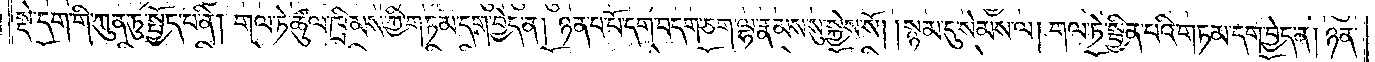སྡེ་དག་གི་ཀུན་ཏུ་སྤྱོད་པ་ནི། གལ་ཏེ་ཚུལ་ཁྲིམས་ཀྱི་གཏམ་དག་བྱེད་ན། ཉན་པ་པོ་དག་བདག་ཅག་ལྷ་རྣམས་སུ་སྐྱེས་སོ། །སྙམ་དུ་སེམས་ལ། གལ་ཏེ་སྦྱིན་པའི་གཏམ་དག་བྱེད་ན། ཉན་
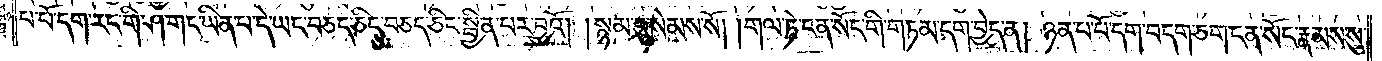པ་པོ་དག་རང་གི་ཤ་གང་ཡིན་པ་དེ་ཡང་བཅད་ཅིང་བཅད་ཅིང་སྦྱིན་པར་བྱའོ། །སྙམ་དུ་སེམས་སོ། །གལ་ཏེ་ངན་སོང་གི་གཏམ་དག་བྱེད་ན། ཉན་པ་པོ་དག་བདག་ཅག་ངན་སོང་རྣམས་སུ་
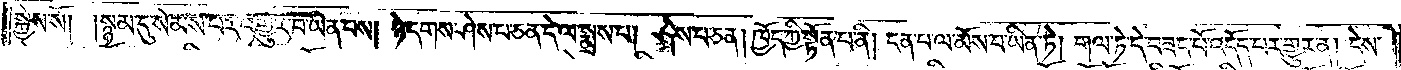སྐྱེས་སོ། །སྙམ་དུ་སེམས་པར་འགྱུར་བ་ཡིན་པས། ཉེ་དགས་ཤེས་པ་ཅན་དེ་ལ་སྨྲས་པ། ཤེས་པ་ཅན། ཁྱོད་ཀྱི་སྟོན་པ་ནི། ངན་པ་ལ་མོས་པ་ཡིན་ཏེ། གལ་ཏེ་དེ་བཟང་པོ་འདོད་པར་གྱུར་ན། དེས་
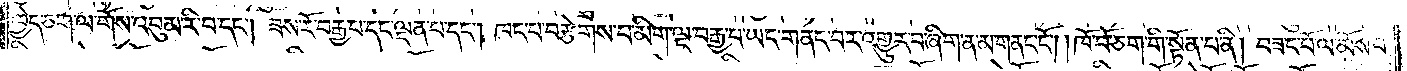ཁྱེད་ཅག་ལ་གོས་འབུམ་རི་བ་དང༌། ཟས་རོ་བརྒྱ་བ་དང་ལྡན་པ་དང༌། ཁང་པ་བརྩེགས་པ་མིག་ལྔ་བརྒྱ་བ་ཡང་གནང་བར་འགྱུར་བ་ཞིག་ན་མ་གནང་ངོ༌། །ཁོ་བོ་ཅག་གི་སྟོན་པ་ནི། བཟང་པོ་ལ་མོས་པ་
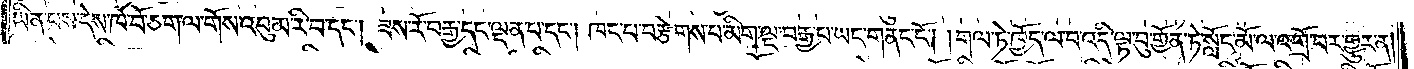ཡིན་པས་དེས་ཁོ་བོ་ཅག་ལ་གོས་འབུམ་རི་བ་དང༌། ཟས་རོ་བརྒྱ་དང་ལྡན་པ་དང༌། ཁང་པ་བརྩེགས་པ་མིག་ལྔ་བརྒྱ་བ་ཡང་གནང་ངོ༌། །གལ་ཏེ་ཁྱོད་ལ་བ་འདི་ལྟ་བུ་གྱོན་ཏེ་སློང་མོ་ལ་འགྲོ་བར་གྱུར་ན།
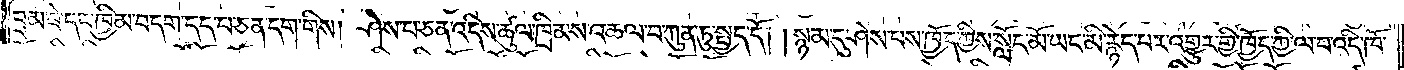བྲམ་ཟེ་དང་ཁྱིམ་བདག་དད་པ་ཅན་དག་གིས། ཤེས་པ་ཅན་འདིས་ཚུལ་ཁྲིམས་འཆལ་བ་ཀུན་ཏུ་སྤྱད་དོ། །སྙམ་དུ་ཤེས་པས་ཁྱོད་ཀྱིས་སློང་མོ་ཡང་མི་རྙེད་པར་འགྱུར་གྱི་ཁྱོད་ཀྱི་ལ་བ་འདི་ཁོ་
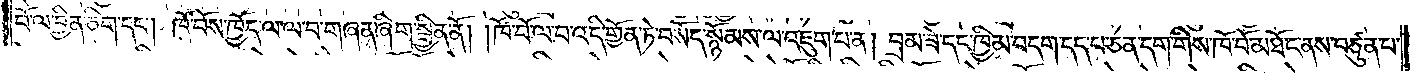བོ་ལ་བྱིན་ཅིག་དང༌། ཁོ་བོས་ཁྱོད་ལ་ལ་བ་གཞན་ཞིག་སྦྱིན་ནོ། །ཁོ་བོ་ལ་བ་འདི་གྱོན་ཏེ་བསོད་སྙོམས་ལ་འཇུག་པ་ན། བྲམ་ཟེ་དང་ཁྱིམ་བདག་དད་པ་ཅན་དག་གིས་ཁོ་བོ་མཐོང་ནས་བཙུན་པ་
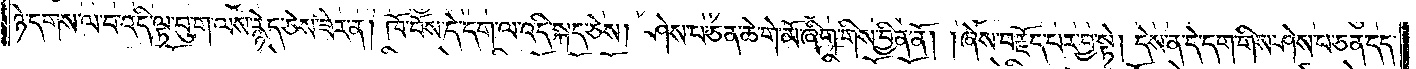ཉེ་དགས་ལ་བ་འདི་ལྟ་བུ་ག་ལས་རྙེད་ཅེས་ཟེར་ན། ཁོ་བོས་དེ་དག་ལ་འདི་སྐད་ཅེས། ཤེས་པ་ཅན་ཆེ་གེ་མོ་ཞིག་གིས་བྱིན་ནོ། །ཞེས་བརྗོད་པར་བྱ་སྟེ། དེས་ན་དེ་དག་གིས་ཤེས་པ་ཅན་དད་
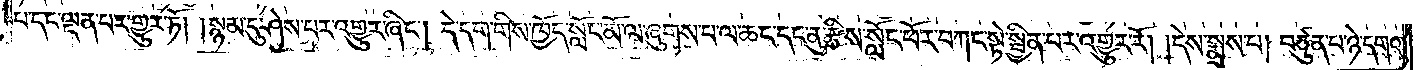པ་དང་ལྡན་པར་གྱུར་ཏོ། །སྙམ་དུ་ཤེས་པར་འགྱུར་ཞིང༌། དེ་དག་གིས་ཁྱོད་སློང་མོ་ལ་ཞུགས་པ་ལ་ཆང་དང་ནུ་རྩིས་སློང་ཕོར་བཀང་སྟེ་སྦྱིན་པར་འགྱུར་རོ། །དེས་སྨྲས་པ། བཙུན་པ་ཉེ་དགའ་
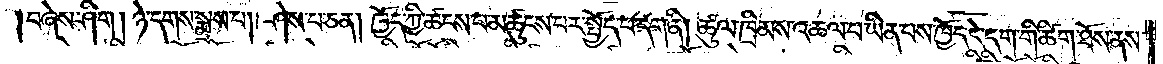།བཞེས་ཤིག །ཉེ་དགས་སྨྲས་པ། ཤེས་པ་ཅན། ཁྱོད་ཀྱི་ཚངས་པ་མཚུངས་པར་སྤྱོད་པ་དག་ནི། ཚུལ་ཁྲིམས་འཆལ་བ་ཡིན་པས་ཁྱོད་དེ་དག་གི་ཚིག་ཐོས་ནས་
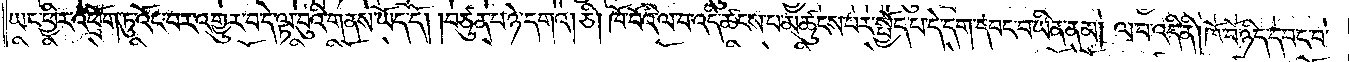ཡང་ཕྱིར་འཕྲོག་ཏུ་འོང་བར་འགྱུར་བ་དེ་ལྟ་བུའི་གནས་ཡོད་དོ། །བཙུན་པ་ཉེ་དགའ། ཅི། ཁོ་བོའི་ལ་བ་འདི་ཚངས་པ་མཚུངས་པར་སྤྱོད་པ་དེ་དག་དབང་བ་ཡིན་ནམ། ལ་བ་འདི་ནི། ཁོ་བོ་ཉིད་དབང་བ་
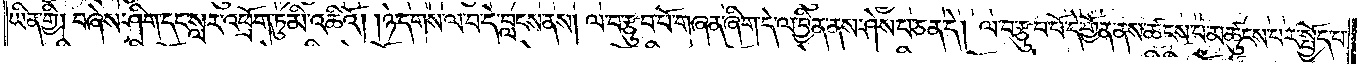ཡིན་གྱི། བཞེས་ཤིག་དང་སླར་འཕྲོག་ཏུ་མི་འཆིའོ། །ཉེ་དགས་ལ་བ་དེ་བླངས་ནས། ལ་བ་རྩུབ་པོ་གཞན་ཞིག་དེ་ལ་བྱིན་ནས་ཤེས་པ་ཅན་དེ། ལ་བ་རྩུབ་པོ་དེ་གྱོན་ནས་ཚངས་པ་མཚུངས་པར་སྤྱོད་པ་
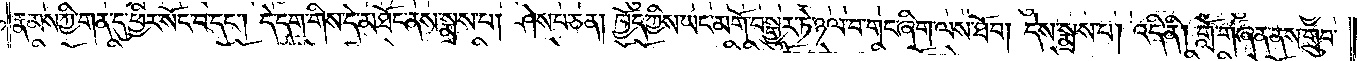རྣམས་ཀྱི་གན་དུ་ཕྱིར་སོང་བ་དང༌། དེ་དག་གིས་དེ་མཐོང་ནས་སྨྲས་པ། ཤེས་པ་ཅན། ཁྱོད་ཀྱིས་ཡང་མགོ་བསྒྱུར་ཏེ་ཉལ་བ་གང་ཞིག་ལས་ཐོབ། དེས་སྨྲས་པ། འདི་ནི། གློ་གཞན་ནས་གྲུབ་
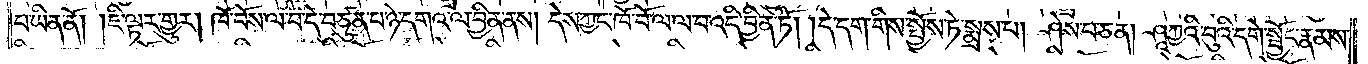པ་ཡིན་ནོ། །ཇི་ལྟར་གྱུར། ཁོ་བོས་ལ་བ་དེ་བཙུན་པ་ཉེ་དགའ་ལ་བྱིན་ནས། དེས་ཀྱང་ཁོ་བོ་ལ་ལ་བ་འདི་བྱིན་ཏོ། །དེ་དག་གིས་སྤྱོས་ཏེ་སྨྲས་པ། ཤེས་པ་ཅན། ཤཱཀྱའི་བུའི་དགེ་སྦྱོང་རྣམས་
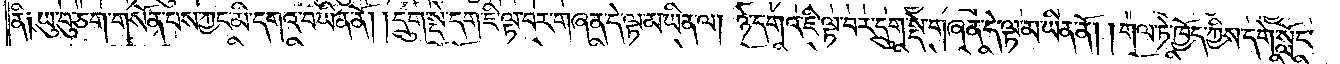ནི༑ ཡུ་བུ་ཅག་གསོན་པས་ཀྱང་མི་དགའ་བ་ཡིན་ནོ། །དྲུག་སྡེ་དག་ཇི་ལྟ་བར་གཞན་དེ་ལྟ་མ་ཡིན་ལ། ཉེ་དགའ་ཇི་ལྟ་བར་དྲུག་སྡེ་གཞན་དེ་ལྟ་མ་ཡིན་ནོ། །གལ་ཏེ་ཁྱོད་ཀྱིས་དགེ་སློང་
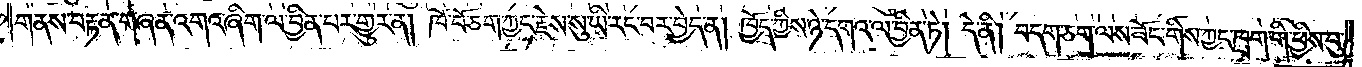གནས་བརྟན་གཞན་འགའ་ཞིག་ལ་བྱིན་པར་གྱུར་ན། ཁོ་བོ་ཅག་ཀྱང་རྗེས་སུ་ཡི་རང་བར་བྱེད་ན། ཁྱོད་ཀྱིས་ཉེ་དགའ་ལ་བྱིན་ཏེ། དེ་ནི། བདག་ཅག་ལས་ཟོང་གིས་ཀྱང་ཁྲག་གི་ཕྱིས་བུ་
